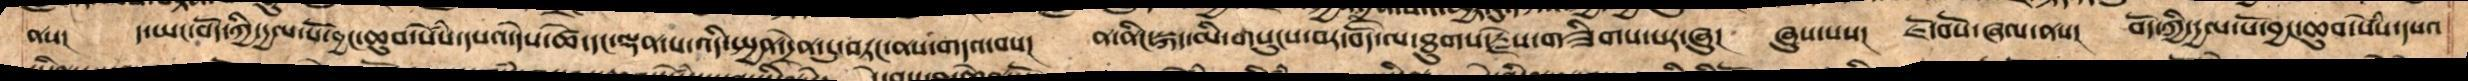ནས།  ད་ཡང་བོད་ཀྱི་དྱལ་པོ་བྱང་ཆུབ་སེཾས་དཔའ་དེས་ཚེ་དང་ལྡན་པ་འདི་སྤྱན་དྲེན་དུ་བཏང་ནས་གདའ་བས།  ན་ནིང་སྐད་མི་གསུངས་བར་བོད་ལ་ཐུགས་རྗེས་གཟིགས་པར་ཞུ།   ཞུས་པས། ཇོ་བོའི་ཞལ་ནས།  བོད་ཀྱི་རྒྱལ་པོ་བྱང་ཆུབ་སེཾས་དཔའ
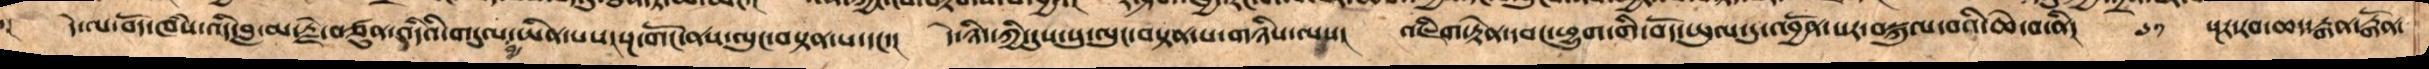དེ་ལ་བོད་ཁཾས་འདི་བླ་མ་རྗེ་བཙུན་འདིའི་གདུལ་བྱ་ཡིན་པས་སྔ་གོང་ནས་ལུང་བསྟན་པ་དང་།   དེ་ཉིད་ཀྱི་དུས་སུ་ལུང་བསྟན་པ་གཉིས་ལས།   འཇིག་རྟེན་དབང་ཕྱུག་གི་བོད་ཡུལ་དུ་འབྱོན་པར་བསྐུལ་བའི་ཆེ་བ་ནི།  ༦༡  སྔར་རབ་ཆད་རྒན་རྒོན་
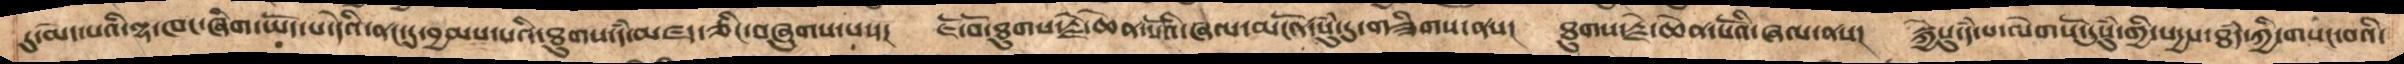དུ་མེད་པའི་ལྷ་ཁང་ཞིག་ཡོད་པ་དེའི་ནང་དུ་བྱམས་པའི་ཐུགས་དཾ་མཛད་ཅིང་བཞུགས་པས།   ཇོ་བོ་ཐུགས་རྗེ་ཆེན་པོའི་ཞལ་མངོན་སུཾ་དུ་གཟིགས་ནས།    ཐུགས་རྗེ་ཆེན་པོའི་ཞལ་ནས།   སྐྱེསུ་དཾ་པ་ལེགསོ་དུསུཾ་གྱི་སདྱས་ཐཾད་ཀྱི་གསང་བའི་
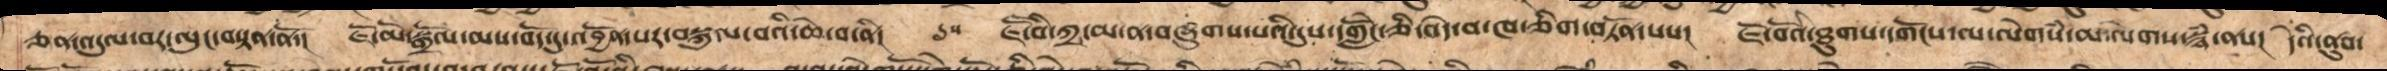ཅན་འདུལ་བར་ལུང་བསྟན་ནོ་།   ཇོ་བོ་སྒྲོལ་མས་བོད་དུ་འབྱོན་པར་བསྐུལ་བའི་ཆེ་བ་ནི།  ༦༥  ཇཽ་བི་ཀྲ་མ་ན་བཞུགས་པའི་དུས་དགླེོང་ཅི་བདེ་བ་ཁ་ཅིག་བཏོན་པས།   ཇོ་བོའི་ཐུགས་དགོངས་ལ་ལེགསཾ་མ་ལེགས་སྙཾ་ནས། དེའི་ནུབ་
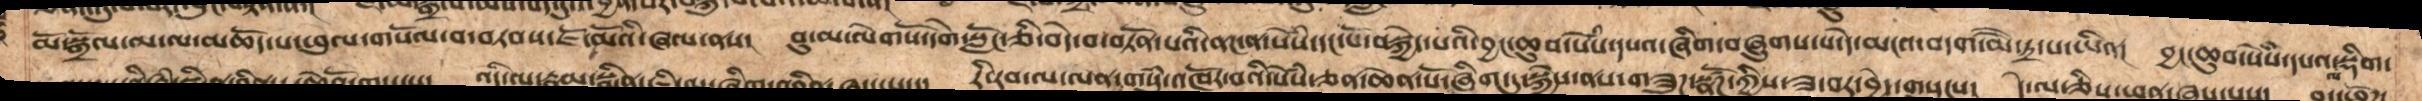མོ་སྒྲོལ་མ་ལ་མཆོད་པ་ཕུལ་གསོལ་བ་བཏབས་ཇོ་མོའི་ཞལ་ནས། བུ་མ་ལེགསོ་དགེ་སློང་ཅི་བདེ་བ་བཏོན་པའི་ནང་ན་སེཾས་དང་པོ་བསྐྱེད་པའི་བྱང་ཆུབ་སེཾས་དཔའ་ཞིག་བཞུགས་པ་དེ་མངའ་བདག་མཻ་ཏྲི་པ་ཡིན། བྱང་ཆུབ་སེཾས་དཔའ་ལ་སྡིག་
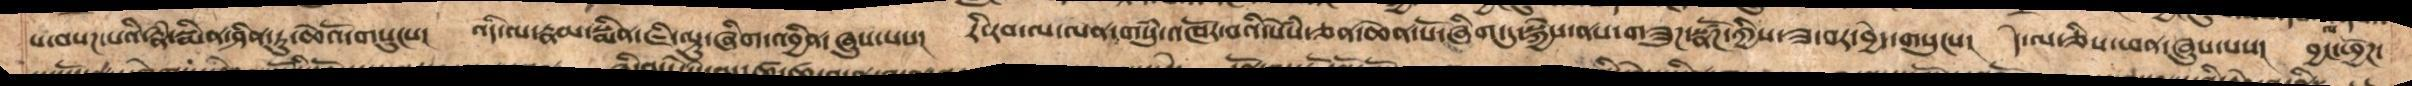པ་བསཌ་པའི་རྣཾ་སྨིན་ཤིན་ཏུ་ཆེའོ་གསུངས།   འདི་ལ་རྣམ་སྨིན་ཇི་ལྟུ་ཞིག་འབྱིན་ཞུས་པས།  རི་རབ་ལ་ལན་གསུཾ་འཁོར་བའི་སེཾས་ཅན་ཆེན་པོ་ཞིག་དུ་སྐྱེས་ནས་གཟུཌ་སྣཚོཌ་ཀྱིས་ཟ་བར་བྱེད་གསུངས།    དེ་ལ་ཅིས་ཕན་ཞུས་པས།  བྱང་ཕྱོཌ་
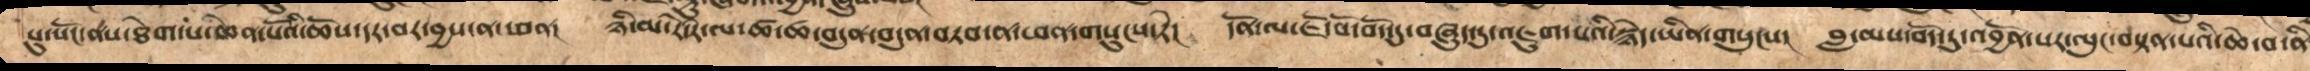སུ་སོང་ནས་ཐེག་པ་ཆེན་པོའི་ཆོས་དར་བར་བྱས་ན་ཕན།   ཉི་མ་རེ་རེ་ལ་ཚ་ཚ་བདུན་བདུན་བཏབ་ན་ཕན་གསུང་ཏེ།   དོན་ལ་ཇོ་བོ་བོད་དུ་བཞུད་དུ་འཇུག་པའི་སྙེད་ཡིན་གསུངས།   བླ་མས་བོད་དུ་འབྱོན་པར་ལུང་བསྟན་པའི་ཆེ་བ་ནི།
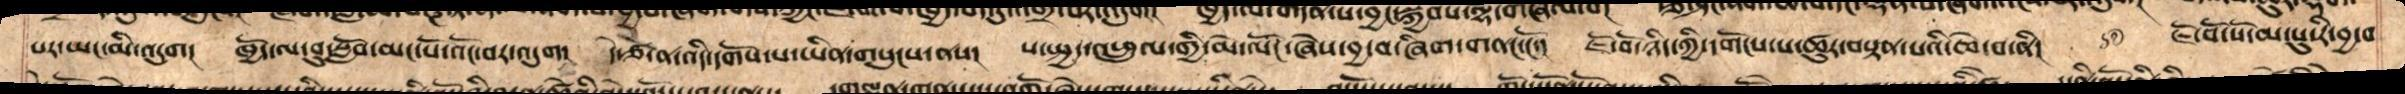པར་ཡང་མི་འདུག།  ཁྱོད་ལ་བུ་སློབ་མང་པོ་འོང་བར་འདུག།    དེ་ཙ་ན་འདི་དགོས་པ་ཡིན་གསུངས་ནས།   ས་སྤྱད་འཕྲུལ་གྱི་མེ་ལོང་ཞེས་བྱ་བ་ཞིག་གནང་ངོ་།   ཇོ་བོ་ཉིད་ཀྱི་དགོངས་པ་ཚུར་ལུང་བསྟན་པའི་ཆེ་བ་ནི།  ༼༦༦༽ ཇོ་བོ་སོ་མ་སུ་རི་བྱ་བ
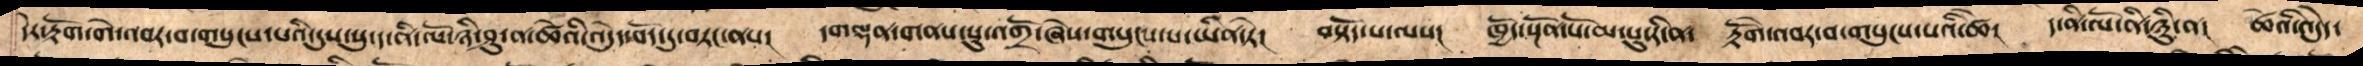དེར་རྟོག་གེ་འབར་བ་གསུངས་པའི་དུས་སུ་ད་ནི་ལོ་ཉི་ཤུ་ན་ཚེའི་འདུ་བྱེད་བོད་དུ་བཏང་ནས།   དགལྡན་གནས་སུ་འགྲོ་ཞེས་གསུངས་པ་ཡིན་ཏེ།  བསྟོད་པ་ལས།  ཁྱོད་སྔོན་པོ་མ་པུ་རི་ན།   རྟོགེ་འབར་བ་གསུངས་པའི་ཚེ།  ད་ནི་ལོ་ནི་ཉིུ་ན།  ཚེའི་འདེུད་
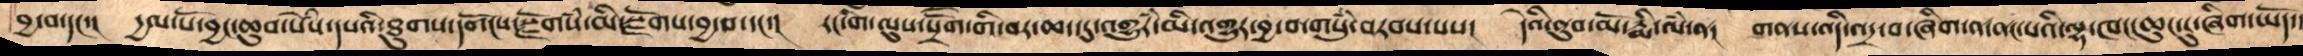བྱ་བ་དང་།   དྱལ་པོ་བྱང་ཆུབ་སེཾས་དཔའི་ཐུགས་དགོངས་སྫོགས་སཾ་མི་སྫོགས་བྱ་བ་དང་།  རང་གི་ལུས་སྲོག་གི་བར་ཆད་དུ་འགྱུརཾ་མི་འགྱུར་བྱ་བ་གསུཾ་བཏབས་པས།   དེའི་ནུབ་མོ་རྨི་ལཾ་ན།  གནས་འདི་འདྲ་བ་ཞིག་ན་ནང་པའི་ལྷ་ཁང་ཆུང་ངུ་ཞིག་ཡོད་།
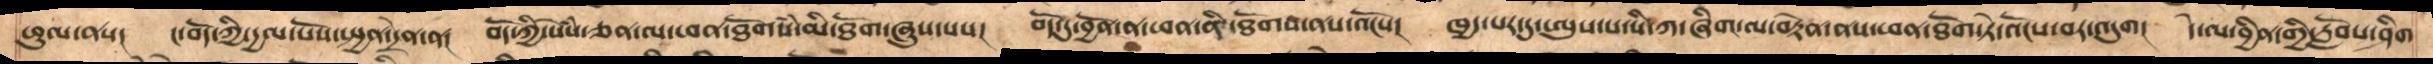ཕུལ་ནས། ང་བོད་ཀྱི་དྱལ་པོས་སྤྱན་དྲེན་ན།   བོད་ཀྱི་སེཾས་ཅན་ལ་ཕན་ཐོགསཾ་་མི་ཐོག་ཞུས་པས།   བོད་དུ་བྱོན་ན་ཕན་ནི་ཐོགས་ནས་འོངས་།   ཁྱད་པར་དུ་ཨུས་ས་སི་ཀ་ཞིག་ལ་བརྟེན་ནས་ཕན་ཐོག་ཏེ་འོངས་བར་འདུག   དེ་ལ་བྱིན་གྱིས་རློབས་ཤིག
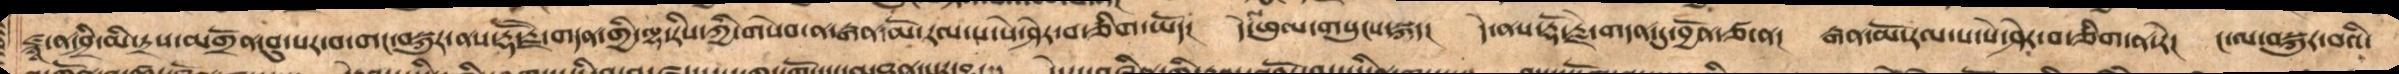ཛྙཱ་ན་ཤྲཱི་མི་ཏྲས་མགྲོན་བུ་པར་བ་གང་བསྐུར་ནས་རྡོ་རྗེ་གདན་གྱི་ལྷ་རིས་ཀྱི་གསེབ་ན་རྒན་མོ་རལ་པ་སེ་ཤེར་བ་ཅིག་ཡོད། དེ་ལ་ཕུལ་གསུང་སྐད། དེ་ནས་རྡོ་རྗེ་གདན་དུ་བྱོན་ཙ་ན། རྒན་མོ་རལ་པ་སེ་ཤེར་བ་ཅིག་ན་རེ། ང་ལ་བསྐུར་བའི་
